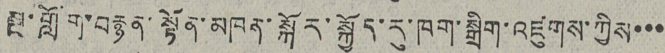སྔ་གློག་བརྙན་སྟོན་མཁན་སྐོར་སྐྱོད་རུ་ཁག་སྒྲིག་འཛུགས་ཀྱིས་་་
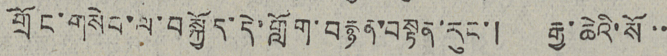གྲོང་གསེབ་ལ་བསྐྱོད་དེ་གློག་བརྙན་བསྟན་རུང་། རྒྱ་ཆེའི་སོ་་
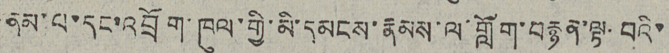ནམ་པ་དང་འབྲོག་ཁུལ་གྱི་མི་དམངས་རྣམས་ལ་གློག་བརྙན་ལྟ་བའི་
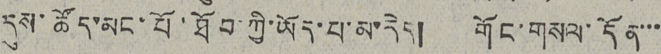དུས་ཚོད་མང་པོ་ཐོབ་ཀྱི་ཡོད་པ་མ་རེད། གོང་གསལ་དོན་་་
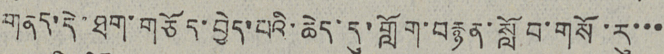གནད་དེ་ཐག་གཅོད་བྱེད་པའི་ཆེད་དུ་གློག་བརྙན་སློབ་གསོ་རུ་་་
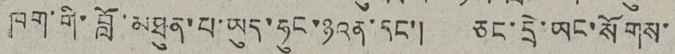ཁག་གི་བློ་མཐུན་པ་ཡུད་ཧུང་ཉའན་དང་། ཅང་དྲེ་ཡང་སོགས་
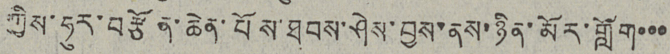ཀྱིས་ཧུར་བརྩོན་ཆེན་པོས་ཐབས་ཤེས་བྱས་ནས་ཉིན་མོར་གློག་་་
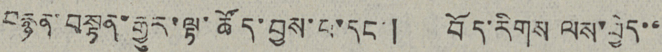བརྙན་བསྟན་རྒྱུར་ལྟ་ཚོད་བྱས་པ་དང་། བོད་རིགས ལས་བྱེད་་
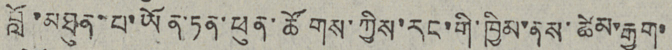བློ་མཐུན་པ་ཡོན་ཏན་ཕུན་ཚོགས་ཀྱིས་རང་གི་ཁྱིམ་ནས་ཚེམ་རྒྱག་
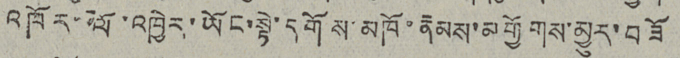འཁོར་ལོ་འཁྱེར་ཡོང་སྟེ་དགོས་མཁོ་རྣམས་མགྱོགས་མྱུར་བཟོ་
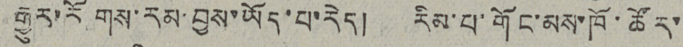རྒྱུར་རོགས་རམ་བྱས་ཡོད་པ་རེད།  རིམ་པ་གོང་མས་ཁོ་ཚོར་
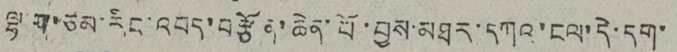ལྷ་ག་ཙམ་རིང་འབད་བརྩོན་ཆེན་པོ་བྱས་མཐར་དཀའ་ངལ་དེ་དག་
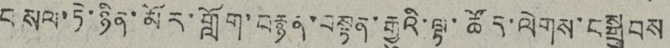བསལ་ཏེ་ཉིན་མོར་གློག་བརྙན་བསྟན་རྒྱུའི་ལྟ་ཚོད་ལེགས་བསྒྲུབས
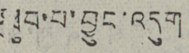ཐུབ་པ་བྱུང་འདུག
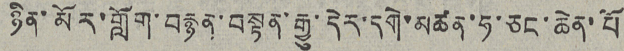ཉིན་མོར་གློག་བརྙན་བསྟན་རྒྱུ་དེར་དགེ་མཚན་ཧ་ཅང་ཆེན་པོ
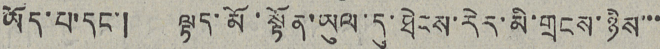ཡོད་པ་དང་།   ལྟད་མོ་སྟོན་ཡུལ་དུ་ཐེངས་རེར་མི་གྲངས་ཉིས་་་
